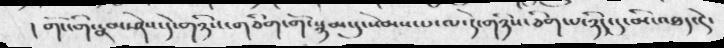།གོང་གི་རྣམ་ཤེས་དེ་གཉིས་གཅིག་གོ་སྙམ་དུ་སེམས་པ་ལ་དེ་གཉིས་ཅིག་པ་ཉིད་དུ་མི་འཐད་དེ་
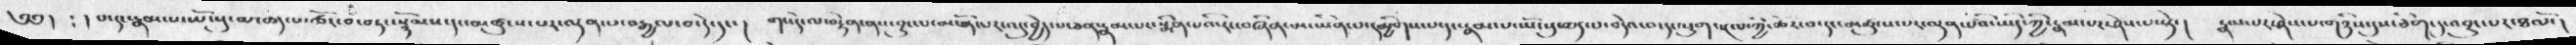༄༅།  ༴ ། པ་དང་རྣམ་པ་ཡོངསུ་མ་ཆད་པ་ཚོར་བ་བཏང་སྙོམས་དང་མཚུངས་པར་ལྡན་པ་བརྒྱལ་བ་དེ་དང་། གང་དེ་ལ་བརྟེན་ནས་བྱུང་པ་མངོན་པར་འདུ་བྱེད་པ་ཅན་རྣམ་པར་སྨིན་པའི་རང་བཞིན་མ་ཡིན་པ་དམྱིགས་པ་དང་རྣམ་པ་ཡོངསུ་ཆད་པ་བདེའ་བ་དང་སྡུག་སྔལ་ཀྱི་ཚོར་བ་དང་མཚུངས་པར་ལྡན་པའི་ཡིད་ཀྱི་རྣམ་པར་ཤེས་པ་སྟེ་།  རྣམ་པར་ཤེས་པ་གཉིས་དུས་ཅིག་དུ་འབྱུང་པར་ཐལོ་།
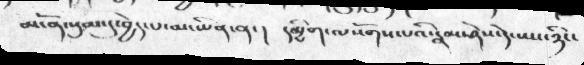མངོན་སུམ་དུ་བྱེད་པ་མ་ཡིན་ན་།  དམྱིགས་ལསོགས་པའི་རྣམ་ཤེས་དེ་ཡང་ཉིང་
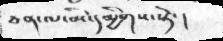ཅན་ལ་མི་དམྱིགས་སྟེ་།
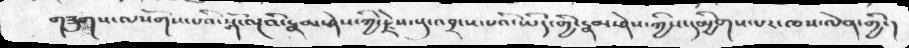གཟུགས་ལསོགས་པའི་སྒོ་ལྔའི་རྣམ་ཤེས་ཀྱི་རྗེས་སུ་འབྲངས་པའི་ཡིད་གྱི་རྣམ་ཤེས་ཀྱིས་དམྱིགས་པར་ལཁས་ལེན་གྱི་།
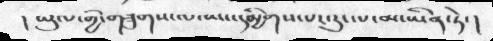།ཡུལ་གྱི་གཟུགས་ལ་ཡང་དམྱིགས་པར་རུང་པ་མ་ཡིན་ཏེ་།
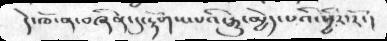དེ་ཁོ་ན་བཞིན་དུ་རྟོགས་པའི་རྒྱུ་མྱེད་པའི་ཕྱིར་རོ་།
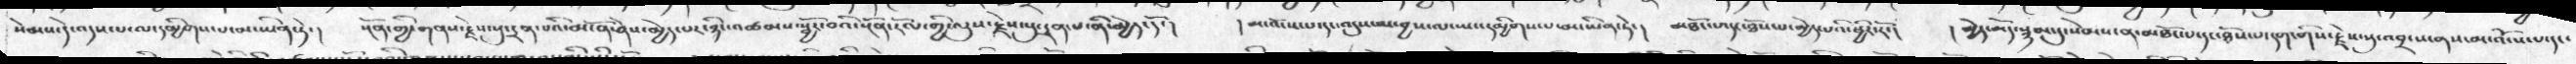སེམས་དེ་འདས་པ་ལ་དམྱིགས་པ་མ་ཡིན་ཏེ་།  སྔོན་གྱི་གནས་རྗེས་སུ་དྲན་པའི་མངོན་ཤེས་མྱེད་པར་ཉིང་འཚམས་སྦྱོར་བའི་སྔོན་རོལ་གྱི་ལུས་རྗེས་སུ་དྲན་པ་ནི་མྱེད་དོ་།   །མ་འོངས་པ་དང་འདུས་མ་བྱས་ལ་ཡང་དམྱིགས་པ་མ་ཡིན་ཏེ་།  མཐོང་པ་དང་ཐོས་པ་མྱེད་པའི་ཕྱིར་རོ་།   །མྱེད་མོད་སྙམ་དུ་སེམས་ན་མཐོང་པ་དང་ཐོས་པ་དག་གིས་རྗེས་སུ་འབྲངས་ནས་མ་འོངས་པ་དང་
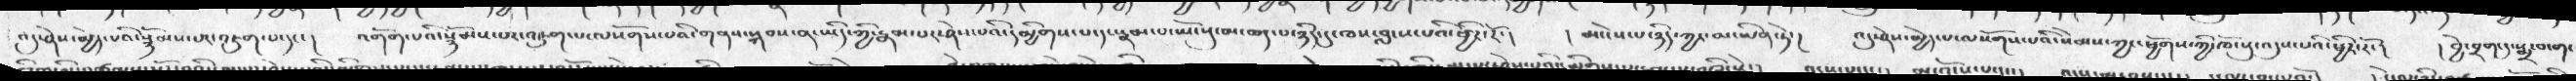འདུ་ཤེས་མྱེད་པའི་སྙོམས་པར་འཇུག་པ་དང་།  འགོག་པའི་སྙོམས་པར་འཇུག་པ་ལསོགས་པའི་གནས་སྐབས་ན་ཡིད་གྱི་རྣམ་པར་ཤེས་པའི་དམྱིགས་པ་དང་རྣམ་པ་ཡོངསུ་མ་ཆད་པ་ཉིད་དུ་ཁས་བླངས་པའི་ཕྱིར་རོ་།   ། མ་ངེས་པ་ཉིད་ཀྱང་མ་ཡིན་ཏེ་།  འདུ་ཤེས་མྱེད་པ་ལསོགས་པའི་སེམས་ཀྱང་ཕྱོགས་ཀྱི་ཁོངསུ་འདུས་པའི་ཕྱིར་རོ་།   ། བྱེ་བྲག་དུ་སྨྲ་བ་གང་
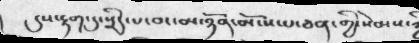དུས་རྟག་དུ་སྲིད་པ་བར་མ་ཉོན་མོངས་པ་ཅན་གྱི་སེམས་ཀྱི
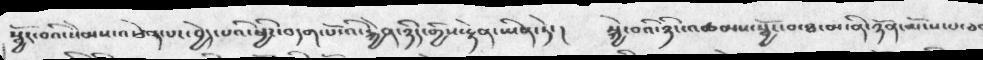སྦྱོར་བའི་སེམས་འཕེན་པར་བྱེད་པའི་ཕྱིར་བདག་པོ་འི་རྐྱེན་ཉིད་གྱིས་རྟེན་ཡིན་ཏེ་།  སྐྱེ་བའི་ཉིང་འཚམས་སྦྱོར་བ་ཐ་མ་ནི་ཉོན་མོངས་པ་ཅ
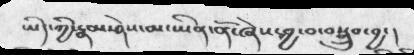ཡིད་ཀྱི་རྣམ་ཤེས་མ་ཡིན་ནོ་ཞེས་བྱ་བ་བསྒྲུབ་བྱ་།
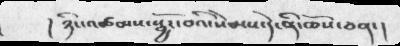། ཉིང་འཚམས་སྦྱོར་བའི་སེམས་དེ་ནི་ཆོས་ཅན་།
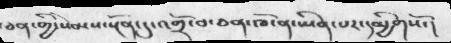ཅན་གྱི་སེམས་སྔོན་དུ་འགྲོ་བ་ཅན་ཁོ་ན་ཡིན་པར་དམྱིགསོ་།
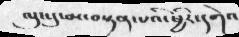ལུད་དུ་མ་བསྟན་པའི་ཕྱིར་དགེའ
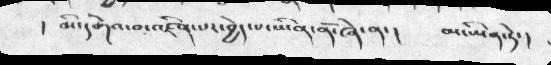།  མི་དགེའ་བ་འཛིན་པར་བྱེད་པ་ཡིན་ནོ་ཞེ་ན་།     མ་ཡིན་ཏེ་།
